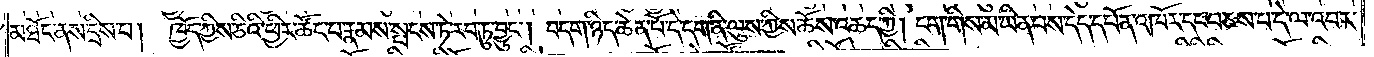མཐོང་ནས་དྲིས་པ། ཁྱོད་ཀྱིས་ཅིའི་ཕྱིར་ཚོང་པ་རྣམས་སྤངས་ཏེ་རབ་ཏུ་བྱུང༌། །བདག་ཉིད་ཆེན་པོ་དེ་དག་ནི་ལུས་ཀྱི་ཆོས་འཆད་ཀྱི། ངག་གིས་མ་ཡིན་པས་དེད་དཔོན་འཁོར་དང་བཅས་པ་དེ་ལ་འབར་
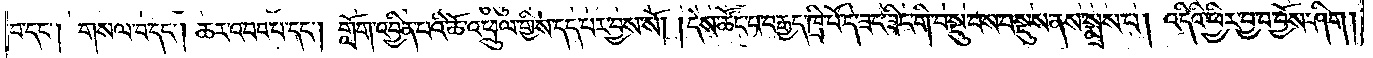བ་དང༌། གསལ་བ་དང༌། ཆར་འབབ་པ་དང༌། གློག་འབྱིན་པའི་ཆོ་འཕྲུལ་གྱིས་དད་པར་བྱས་སོ། །དེས་ཚོང་པ་བརྒྱད་ཁྲི་པོ་དེ་ཟང་ཟིང་གིས་བསྡུ་བས་བསྡུས་ནས་སྨྲས་པ། འདིའི་ཕྱིར་བྱ་བ་བྱོས་ཤིག །
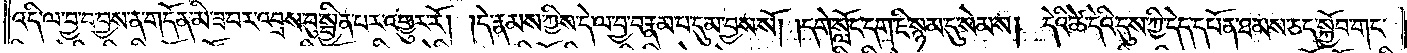འདི་ལ་བྱ་བ་བྱས་ན་གདོན་མི་ཟ་བར་འབྲས་བུ་སྦྱིན་པར་འགྱུར་རོ། །དེ་རྣམས་ཀྱིས་དེ་ལ་བྱ་བ་རྣམ་པ་དུ་མ་བྱས་སོ། །དགེ་སློང་དག་ཇི་སྙམ་དུ་སེམས། དེའི་ཚེ་དེའི་དུས་ཀྱི་དེད་དཔོན་ཐམས་ཅད་སྐྱོབ་གང་
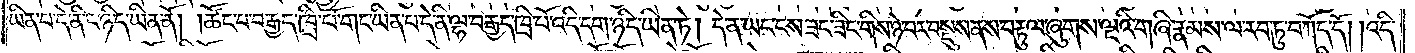ཡིན་པ་དེ་ནི་ང་ཉིད་ཡིན་ནོ། །ཚོང་པ་བརྒྱད་ཁྲི་པོ་གང་ཡིན་པ་དེ་ནི་ལྷ་བརྒྱད་ཁྲི་པོ་འདི་དག་ཉིད་ཡིན་ཏེ། དེ་ན་ཡང་ངས་ཟང་ཟིང་གིས་ཉེ་བར་བསྡུས་ནས་བརྟུལ་ཞུགས་ལྔའི་གཞི་རྣམས་ལ་རབ་ཏུ་བཀོད་དོ། །འདི་
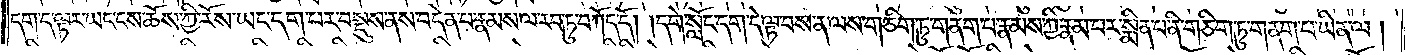དག་ད་ལྟར་ཡང་ངས་ཆོས་ཀྱི་རོས་ཡང་དག་པར་བསྡུས་ནས་བདེན་པ་རྣམས་ལ་རབ་ཏུ་བཀོད་དོ། །དགེ་སློང་དག་དེ་ལྟ་བས་ན་ལས་གཅིག་ཏུ་གནག་པ་རྣམས་ཀྱི་རྣམ་པར་སྨིན་པ་ནི་གཅིག་ཏུ་གནག་པ་ཡིན་ལ།
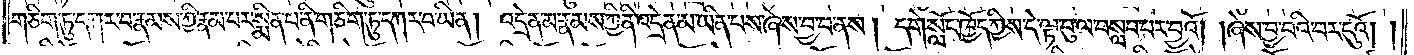གཅིག་ཏུ་དཀར་བ་རྣམས་ཀྱི་རྣམ་པར་སྨིན་པ་ནི་གཅིག་ཏུ་དཀར་བ་ཡིན། འདྲེན་མ་རྣམས་ཀྱི་ནི་འདྲེན་མ་ཡིན་པས་ཞེས་བྱ་བ་ནས། དགེ་སློང་ཁྱོད་ཀྱིས་དེ་ལྟ་བུ་ལ་བསླབ་པར་བྱའོ། །ཞེས་བྱ་བའི་བར་དུའོ། །
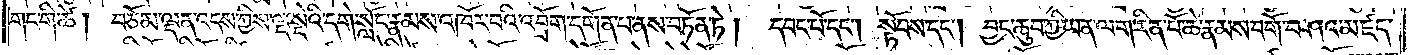གང་གི་ཚེ། བཅོམ་ལྡན་འདས་ཀྱིས་ལྔ་སྡེའི་དགེ་སློང་རྣམས་འཁོར་བའི་འབྲོག་དགོན་པ་ནས་བཏོན་ཏེ། དབང་པོ་དང༌། སྟོབས་དང༌། བྱང་ཆུབ་ཀྱི་ཡན་ལག་རིན་པོ་ཆེ་རྣམས་བགོ་བཤའ་མཛད་
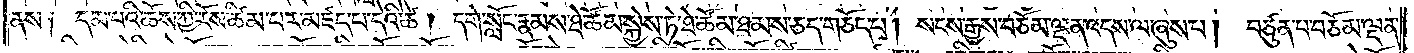ནས། དམ་པའི་ཆོས་ཀྱི་རོས་ཚིམ་པར་མཛད་པ་དེའི་ཚེ། དགེ་སློང་རྣམས་ཐེ་ཚོམ་སྐྱེས་ཏེ་ཐེ་ཚོམ་ཐམས་ཅད་གཅོད་པ། སངས་རྒྱས་བཅོམ་ལྡན་འདས་ལ་ཞུས་པ། བཙུན་པ་བཅོམ་ལྡན་
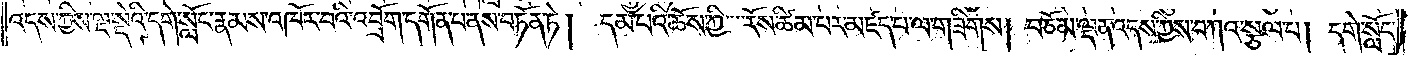འདས་ཀྱིས་ལྔ་སྡེའི་དགེ་སློང་རྣམས་འཁོར་བའི་འབྲོག་དགོན་པ་ནས་བཏོན་ཏེ། དམ་པའི་ཆོས་ཀྱི་རོས་ཚིམ་པར་མཛད་པ་ལ་གཟིགས། །བཅོམ་ལྡན་འདས་ཀྱིས་བཀའ་སྩལ་པ། དགེ་སློང་
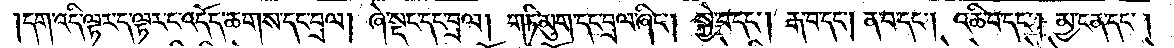།དག་འདི་ལྟར་ད་ལྟར་ང་འདོད་ཆགས་དང་བྲལ། ཞེ་སྡང་དང་བྲལ། གཏི་མུག་དང་བྲལ་ཞིང༌། སྐྱེ་བ་དང༌། རྒ་བ་དང༌། ན་བ་དང༌། འཆི་བ་དང༌། མྱ་ངན་དང༌།
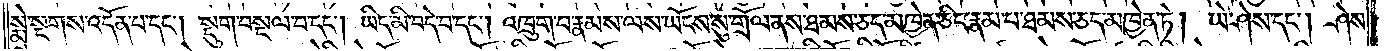སྨྲེ་སྔགས་འདོན་པ་དང༌། སྡུག་བསྔལ་བ་དང༌། ཡིད་མི་བདེ་བ་དང༌། འཁྲུག་པ་རྣམས་ལས་ཡོངས་སུ་གྲོལ་ནས་ཐམས་ཅད་མཁྱེན་ཅིང་རྣམ་པ་ཐམས་ཅད་མཁྱེན་ཏེ། ཡེ་ཤེས་དང༌། ཤེས་
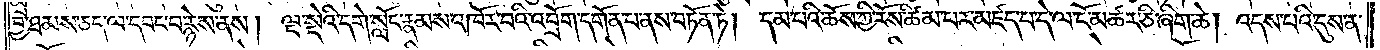བྱ་ཐམས་ཅད་ལ་དབང་བརྙེས་ནས། ལྔ་སྡེའི་དགེ་སློང་རྣམས་འཁོར་བའི་འབྲོག་དགོན་པ་ནས་བཏོན་ཏེ། དམ་པའི་ཆོས་ཀྱི་རོས་ཚིམ་པར་མཛད་པ་དེ་ལ་ངོ་མཚར་ཅི་ཞིག་ཆེ། འདས་པའི་དུས་ན་
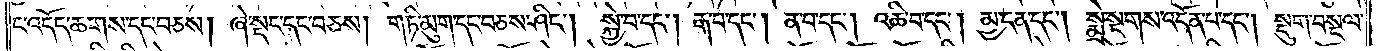ང་འདོད་ཆགས་དང་བཅས། ཞེ་སྡང་དང་བཅས། གཏི་མུག་དང་བཅས་ཤིང༌། སྐྱེ་བ་དང༌། རྒ་བ་དང༌། ན་བ་དང༌། འཆི་བ་དང༌། མྱ་ངན་དང༌། སྨྲེ་སྔགས་འདོན་པ་དང༌། སྡུག་བསྔལ་
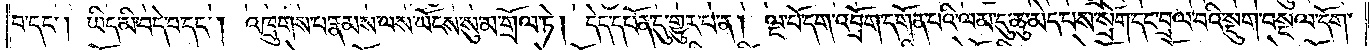བ་དང༌། ཡིད་མི་བདེ་བ་དང༌། འཁྲུགས་པ་རྣམས་ལས་ཡོངས་སུ་མ་གྲོལ་ཏེ། དེད་དཔོན་དུ་གྱུར་པ་ན། ལྔ་པོ་དག་འབྲོག་དགོན་པའི་ལམ་དུ་ཆུ་མེད་པས་སྲོག་དང་བྲལ་བའི་སྡུག་བསྔལ་དོག་
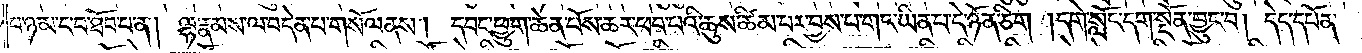པ་ཉམ་ང་བ་ཐོབ་པ་ན། ལྷ་རྣམས་ལ་བདེན་པ་གསོལ་ནས། དབང་ཕྱུག་ཆེན་པོས་ཆར་ཕབ་པའི་ཆུས་ཚིམ་པར་བྱས་པ་གང་ཡིན་པ་དེ་ཉོན་ཅིག །དགེ་སློང་དག་སྔོན་བྱུང་བ། དེད་དཔོན་
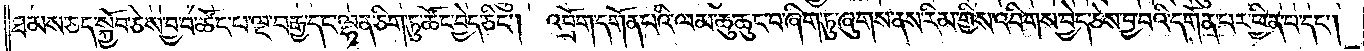ཐམས་ཅད་སྐྱོབ་ཅེས་བྱ་བ་ཚོང་པ་ལྔ་བརྒྱ་དང་ལྷན་ཅིག་ཏུ་ཚོང་བྱེད་ཅིང༌། འབྲོག་དགོན་པའི་ལམ་ཆུ་ཆུང་བ་ཞིག་ཏུ་ཞུགས་ནས་རིམ་གྱིས་འབིགས་བྱེད་ཅེས་བྱ་བའི་དགོན་པར་ཕྱིན་པ་དང༌།
